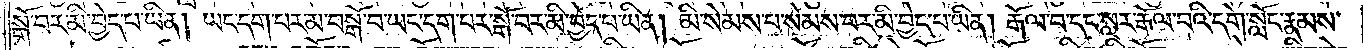སྒོ་བར་མི་བྱེད་པ་ཡིན། ཡང་དག་པར་མ་བསྒོ་བ་ཡང་དག་པར་སྒོ་བར་མི་བྱེད་པ་ཡིན། མི་སེམས་པ་སེམས་བར་མི་བྱེད་པ་ཡིན། རྒོལ་བ་དང་སླར་རྒོལ་བའི་དགེ་སློང་རྣམས་
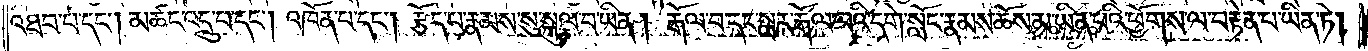འཐབ་པ་དང་། མཚང་འདྲུ་བ་དང་། འཁོན་པ་དང་། རྩོད་པ་རྣམས་སུ་སྐུལ་བ་ཡིན། རྒོལ་བ་དང་སླར་རྒོལ་བའི་དགེ་སློང་རྣམས་ཆོས་མ་ཡིན་པའི་ཕྱོགས་ལ་བརྟེན་པ་ཡིན་ཏེ།
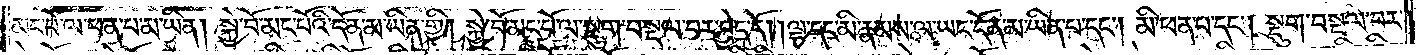མང་པོ་ལ་ཕན་པ་མ་ཡིན། སྐྱེ་བོ་མང་པོའི་དོན་མ་ཡིན་གྱི། སྐྱེ་བོ་མང་པོ་ལ་སྡུག་བསྔལ་བར་བྱེད་དོ། །ལྷ་དང་མི་རྣམས་ལ་ཡང་དོན་མ་ཡིན་པ་དང༌། མི་ཕན་པ་དང༌། སྡུག་བསྔལ་བར་
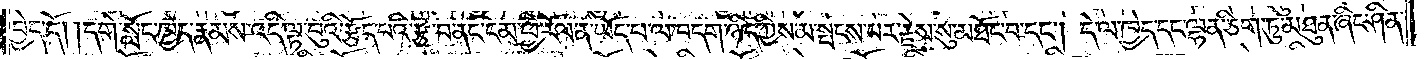བྱེད་དོ། །དགེ་སློང་ཁྱེད་རྣམས་འདི་ལྟ་བུའི་རྩོད་པའི་རྩ་བ་ནང་ངམ་ཕྱི་རོལ་ན་ཡོད་པ་ལ་བདག་ཉིད་ཀྱིས་མ་སྤངས་པར་རྗེས་སུ་མཐོང་བ་དང༌། དེ་ལ་ཁྱེད་དང་ལྷན་ཅིག་ཏུ་མཐུན་ཞིང་ཤིན་
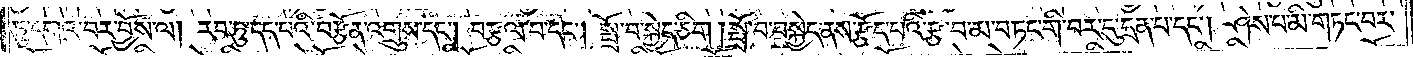ཏུ་དགའ་བར་བྱོས་ལ། རབ་ཏུ་དད་པའི་བརྩོན་འགྲུས་དང༌། བརྩལ་བ་དང༌། སྤྲོ་བ་སྐྱེད་ཅིག །སྤྲོ་བ་བསྐྱེད་ནས་རྩོད་པའི་རྩ་བ་མ་བཏང་གི་བར་དུ་དྲན་པ་དང༌། ཤེས་པ་མི་གཏང་བར་
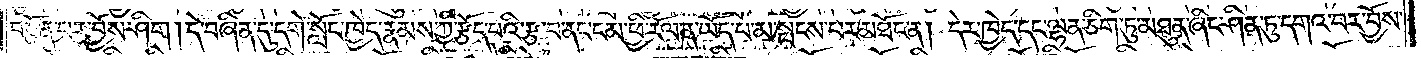བརྩོན་པར་བྱོས་ཤིག །དེ་བཞིན་དུ་དགེ་སློང་ཁྱེད་རྣམས་ཀྱི་རྩོད་པའི་རྩ་བ་ནང་ངམ་ཕི་རོལ་ན་ཡོད་པ་མ་སྤངས་པར་མཐོང་ན། དེར་ཁྱེད་དང་ལྷན་ཅིག་ཏུ་མཐུན་ཞིང་ཤིན་ཏུ་དགའ་བར་བྱོས་
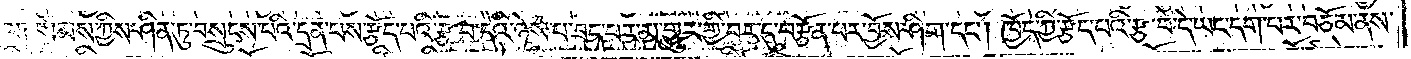ལ༑ སེམས་ཀྱིས་ཤིན་ཏུ་བསྲུངས་པའི་དྲན་པས་རྩོད་པའི་རྩ་བ་དེའི་ཉེས་པ་ཟད་པར་མ་གྱུར་གྱི་བར་དུ་བརྩོན་པར་བྱོས་ཤིག་དང༌། ཁྱོད་ཀྱི་རྩོད་པའི་རྩ་བ་དེ་ཡང་དག་པར་བཅོམ་ནས་
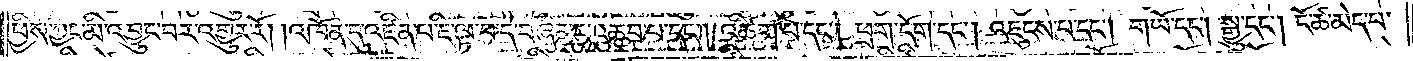ཕྱིས་ཀྱང་མི་འབྱུང་བར་འགྱུར་རོ། །འཁོན་དུ་འཛིན་པ་ཇི་ལྟ་བ་དེ་བཞིན་དུ་འཆབ་པ་དང༌། འཚིག་པ་དང༌། ཕྲག་དོག་དང༌། འཇུངས་པ་དང༌། གཡོ་དང༌། སྒྱུ་དང༌། ངོ་ཚ་མེད་པ་
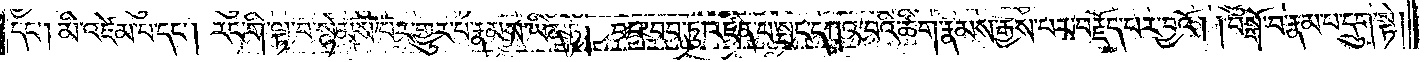དང༌། མི་འཛེམ་པ་དང༌། རང་གི་ལྟ་བ་སྙེམས་པར་གྱུར་པ་རྣམས་ཡིན་ཏེ། བབ་བབ་ཏུ་འཛིན་པ་སྤང་དཀའ་བའི་ཚིག་རྣམས་རྒྱས་པར་བརྗོད་པར་བྱའོ། །བསྒོ་བ་རྣམ་པ་དྲུག་སྟེ།
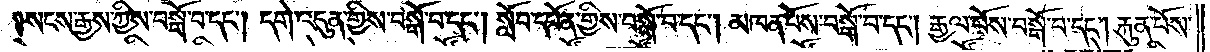སངས་རྒྱས་ཀྱིས་བསྒོ་བ་དང༌། དགེ་འདུན་གྱིས་བསྒོ་བ་དང༌། སློབ་དཔོན་གྱིས་བསྒོ་བ་དང༌། མཁན་པོས་བསྒོ་བ་དང༌། རྒྱལ་པོས་བསྒོ་བ་དང༌། རྐུན་པོས་
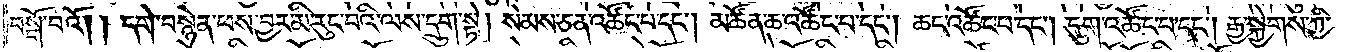བསྒོ་བའོ། །དགེ་བསྙེན་ཕས་བྱར་མི་རུང་བའི་ལས་དྲུག་སྟེ། སེམས་ཅན་འཚོང་པ་དང༌། མཚོན་ཆ་འཚོང་པ་དང༌། ཆང་འཚོང་པ་དང༌། དུག་འཚོང་པ་དང༌། རྒྱ་སྐྱེགས་ཀྱི་
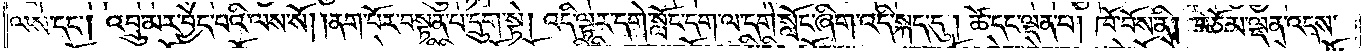ལས་དང༌། འབྲུ་མར་བྱེད་པའི་ལས་སོ། །ནག་པོར་བསྟན་པ་དྲུག་སྟེ། འདི་ལྟར་དགེ་སློང་དག་ལ་དགེ་སློང་ཞིག་འདི་སྐད་དུ། ཚེ་དང་ལྡན་པ། ཁོ་བོས་ནི། བཅོམ་ལྡན་འདས་
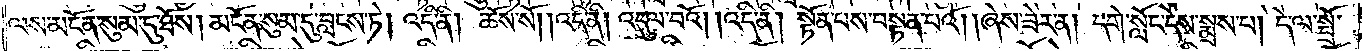ལས་མངོན་སུམ་དུ་ཐོས། མངོན་སུམ་དུ་བླངས་ཏེ། འདི་ནི། ཆོས་སོ། །འདི་ནི། འདུལ་བའོ། །འདི་ནི། སྟོན་པས་བསྟན་པའོ། །ཞེས་ཟེར་ན། དགེ་སློང་དེས་སྨྲས་པ། དེ་ལ་སྤྲོ་
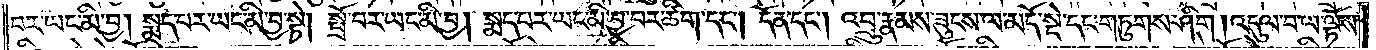བར་ཡང་མི་བྱ། སྨད་པར་ཡང་མི་བྱ་སྟེ། སྤྲོ་བར་ཡང་མི་བྱ། སྨད་པར་ཡང་མི་བྱ་བར་ཚིག་དང༌། དོན་དང༌། འབྲུ་རྣམས་ཟུངས་ལ་མདོ་སྡེ་དང་གཏུགས་ཤིག། འདུལ་བ་ལ་ལྟོས་
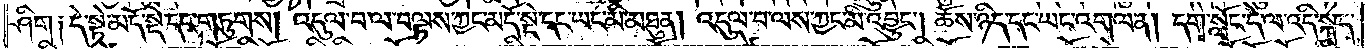ཤིག་༑དེ་སྟེ་མདོ་སྡེ་དང་གཏུགས། འདུལ་བ་ལ་བལྟས་ཀྱང་མདོ་སྡེ་དང་ཡང་མི་མཐུན། འདུལ་བ་ལས་ཀྱང་མི་འབྱུང༌། ཆོས་ཉིད་དང་ཡང་འགལ་ན། དགེ་སློང་དེ་ལ་འདི་སྐད་
